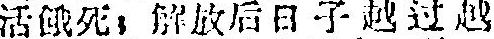活餓死；解放后日子越过越
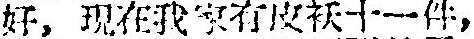好，現在我家有皮袄十一件，
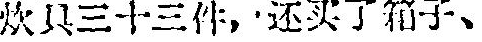炊具三十三件，还头了箱子、
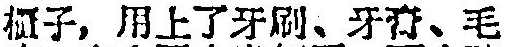櫃子，用上了牙刷、牙膏、毛
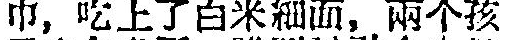巾，吃上了白米細面，兩个孩
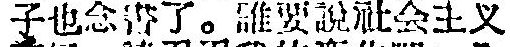子也念書了。誰要說社会主义
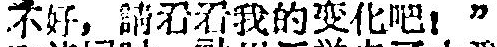不好，請看看我的变化吧！”
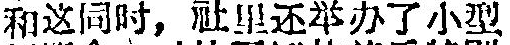和这同时，社里还举办了小型
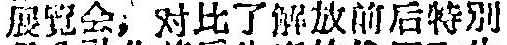展覽会，对比了解放前后特别
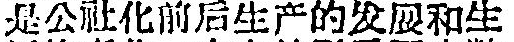是公社化前后生产的发展和生
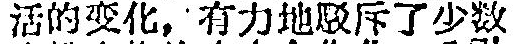活的变化，有力地駁斥了少数
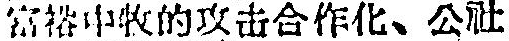富裕中牧的攻击合作化、公社
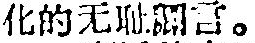化的无耻谰言。
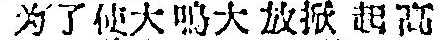为了使大鳴大放掀起高
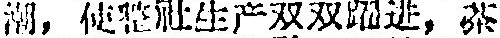潮，使整社生产双双躍进，茶
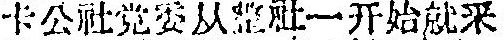卡公社党委从整社一开始就采
